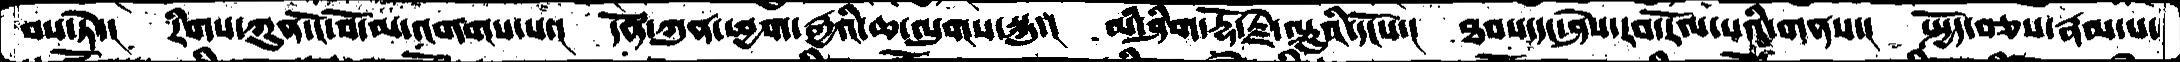བས་ཏེ་།   རིགས་ཀུན་ངོ་བོ་མ་འགགས་པ་།  དོན་ཀུན་ཕྱག་རྒྱའི་ཆ་ལུགས་སྐུ་།  མི་ཤིག་རྡོ་རྗེ་ལྟུའི་དངོས་།  ཐབས་དང་ཤེས་རབ་རོལ་པའི་གནས་།  སྤྱོད་བཅས་རྣམ་པ་
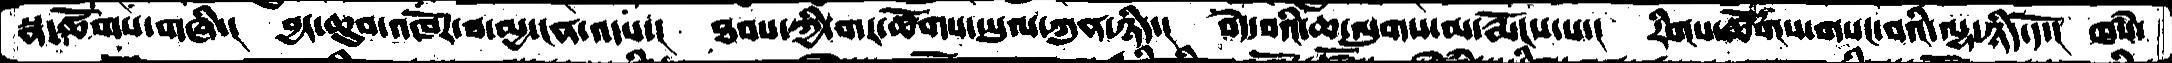སྣ་ཚོགས་གཞི་།  བྱང་ཆུབ་འཁོར་བ་མྱ་ངན་འདས་།   ཐབས་ཀྱི་གར་ཚོགས་ཡུལ་ཀུན་ཉིད་།  བདེ་བའི་ཆ་ལུགས་མ་རྨོངས་པ་།  རིགས་ཚོགས་གསང་བའི་ལྷ་ཉིད་དོ་།  ཁཾས་
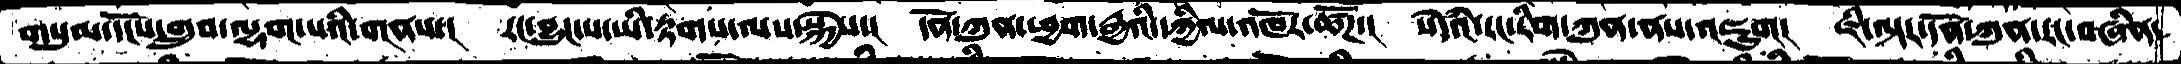གསུམ་དངོས་གྲུབ་ལྷག་པའི་གནས་།  རང་བྱུང་ས་ཡི་རྟགས་ལས་སྐྱེས་།  དོན་ཀུན་ཕྱག་རྒྱའི་དཀྱིལ་འཁོར་ཚོཌ་།  སེཾདའི་རང་རིག་ཀུན་ནས་འཇུག།  ཇི་ལྟར་དོན་ཀུན་རང་བཞིན་
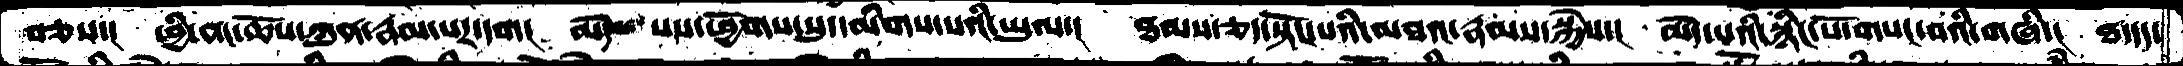བཅས་།   ཕྱི་ནང་ཆོས་ཀུན་རྣམ་པར་དག།  མེད་པས་ཕྱོགས་སུ་དམིགས་པའི་ཡུལ་།  ཐམས་ཅད་སྟོང་པའི་མཐའ་རྣམས་སྐྱེས་།  མེད་པའི་སྙིང་པོ་གསང་བའི་གཞི་།  ཐ་དད་
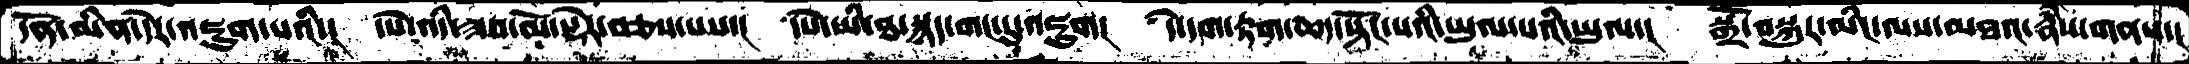དོན་མིན་དེར་འཇུག་པའི་།  དཔེ་འདི་ཟབ་མོ་སྡེར་བཅས་པས་།  དཔེ་ཡི་ཐ་སྙད་གང་དུ་འཇུག།  དེ་དག་རྟག་ཆད་སྟོང་པའི་ཡུལ་པའི་ཡུལ་།  སྒྲོ་བསྐུར་མིང་ལས་མཐའ་རྣཾས་གནས་།
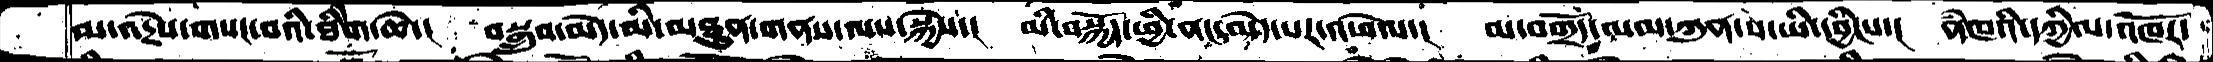མ་འདྲེས་གསང་བའི་ཐིེག་ཆེ་།  བསྒྲུབ་མེད་མི་མཐུན་གནས་ལས་སྐྱེས་།  མི་བསྐྱོད་ཕྱི་ནང་མེད་པར་འཕེལ་།  མ་བགྲོད་ལམ་ཀུན་ས་ཡི་དབྱིངས་།  ནཾཁའི་དཀྱིལ་འཁོར་
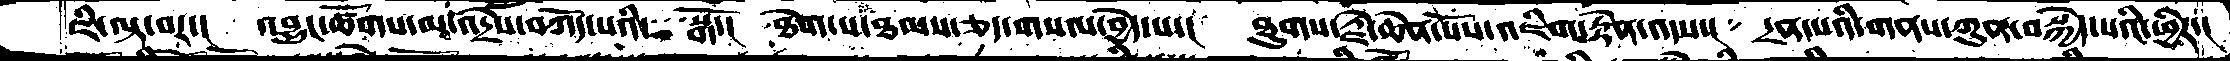ཇི་ལྟ་བར་།  འབྱུང་ཚོགས་མ་འདྲེས་བཀོད་པའི་སྒོ་།  ཐེག་པ་ཐམས་ཅད་གསལ་བྱེད་པ་།  ཐུགས་རྗེ་ཆེན་པོས་འཇིག་རྟེན་འདས་། དྲན་པའི་གནས་ཀུན་བསྐྱེད་པའི་ཕྱིར་།
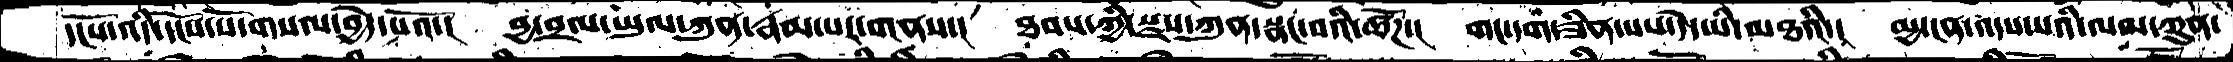དངོས་འདི་དངོས་པོ་གསལ་བྱེད་པའོ་།  བྱ་བྲལ་ཡུལ་ཀུན་རྣམ་པར་གནས་།  ཐབས་ཀྱི་སྫས་ཀུན་སྣང་བའི་ཚོཌ་།  གང་དག་ཟིན་པས་དེ་ཡི་མཐའི་།  མྱ་ངན་འདས་པའི་ལམ་ཀུན་
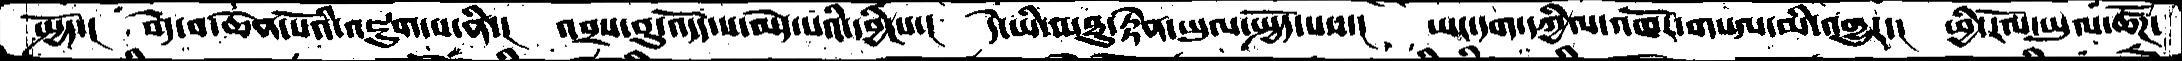སྤྱོད་།  བདེ་བ་ཆེན་པོའི་འཇུག་པ་ནི་།  འབྲས་བུ་འདོད་པ་མེད་པའི་དབྱིངས་།  དེ་ཡི་མཐུ་རྟེན་ཡུལ་སྤྱོད་པས་།  ཡང་དག་དཀྱིལ་འཁོར་གསལ་མི་འགྱུར་།  ཕྱི་རོལ་ཡུལ་ཚོཌ་
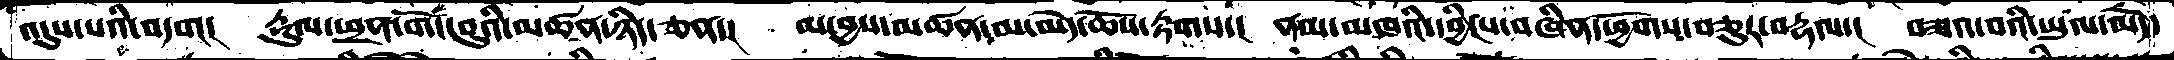འདུས་པའི་བདག།  རྡུལ་ཕྲན་གོང་བུའི་མཚན་ཉིད་ཅན་།  མ་བྱས་མཚན་མ་མེད་ཆོས་རྟོགས་།  ནམ་མཁའི་དབྱིངས་བཞིན་ཕྱོགས་བཅུར་བརྡལ་།  བཟའ་བའི་ཡུལ་མེད་
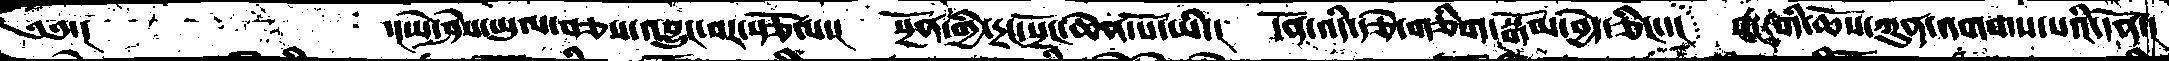༄༅་།    ་།ཡེ་ཤེས་ཡུལ་བཅས་འབྱུང་བར་རྩོལ་།  སྔོན་གྱི་དྲང་སྲོང་ཆེན་པོ་ཡི་།  དོན་འདི་རྩེ་གཅིག་སྒོམ་བྱེད་ཅིང་་། རང་གི་ཆོས་ཀུན་འགགས་པའི་དོན་།
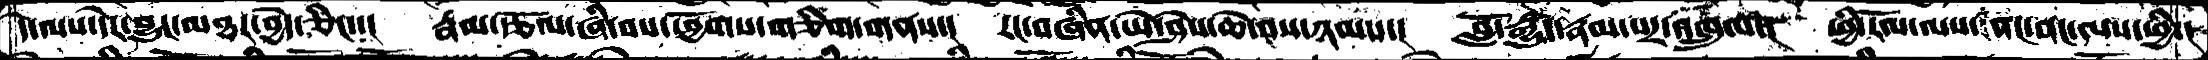དེ་ལས་དེར་བྱུང་མཐར་བྱེད་ཅིང་་།  རྣམ་རྩོལ་ཞི་བས་ཕྱོགས་གཅིག་གནས་།  རང་བཞིན་ཡེ་ཤེས་ཆེ་བས་ཉམས་།  བློ་རྒྱུད་རྣམ་པར་འཁྲུལ་།  ཕྱི་རོལ་ལས་ནང་ནང་ལས་ཕྱི་།
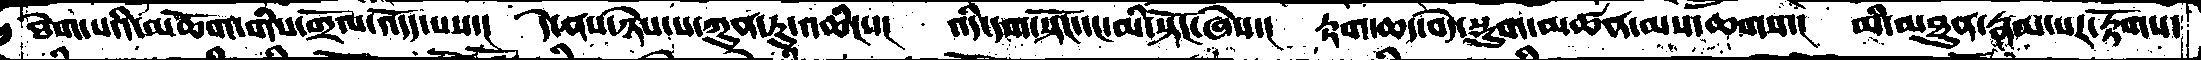ཐེག་པའི་མཆོག་གིས་གྲོལ་འདོད་པས་།  དེ་ནས་ཉེས་པ་ཀུན་ཏུ་འཆིངས་།  འདི་དག་སྟོང་དང་མི་སྟོང་ཞེས་།  རྟག་ཆད་བདེ་སྡུག་མཚན་མས་ཆགས་།  མི་མཐུན་རྣམ་པར་རྟོགས་
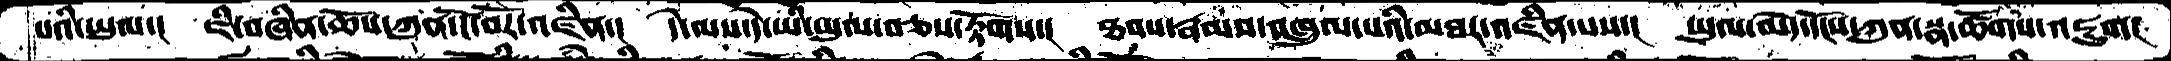པའི་ཡུལ་།  ཇི་བཞིན་ཆོས་ཀུན་ངོ་བོར་འཛིན་།  དེ་ལས་དེ་ཡི་ཡུལ་བཅས་རྟོགས་།  ཐབས་རྣམས་འཁྲུལ་པའི་མཐར་འཛིན་པས་།  ཡུལ་མེད་དངོས་ཀུན་སྣ་ཚོགས་འཇུག།
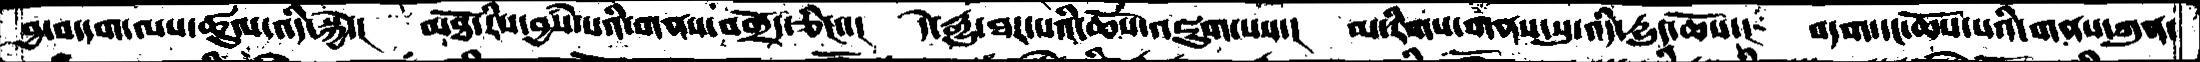བྱ་བ་དག་ལས་ཚུལ་འདི་སྐྱེ་།  མཐོ་རིས་བྱཾས་པའི་གནས་བགྲོད་ཅིང་།   དེ་རྒྱུ་ཐར་པའི་ཆོས་འཇུག་པས་།   མ་རིགས་གནས་སུ་འདི་རྱུད་ཆོས་།  བདག་དང་ཆོས་པའི་གནས་ཀུན་
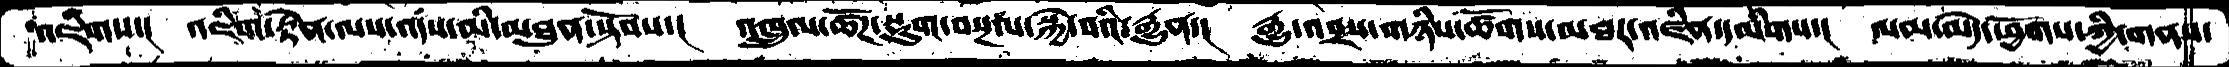འཇིགས་།   འཇིག་རྟེན་ལས་འདས་མི་མཐུན་སྟོབས་།   འཁྲུལ་ཚོཌ་སྡུག་བསྔལ་སྐྱེ་བའི་རྒྱུན་།  རྒྱུ་འབྲས་གཉིས་ཚོགས་མཐར་འཛིན་དམིགས་།  ལམ་མེད་ཕྱོགས་ཀྱི་གནས་
